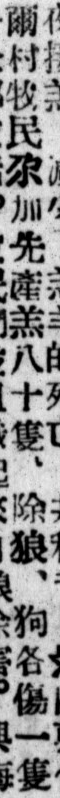爾村牧民尕加先產羔八十隻，除狼、狗各傷一隻
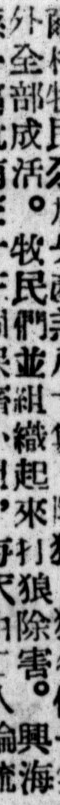外全部成活。牧民們並組織起來打狼除害。興海
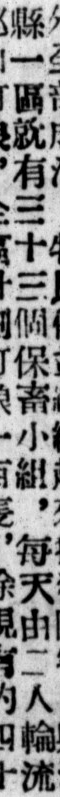縣一區就有三十三個保畜小組，每天由二人輪流
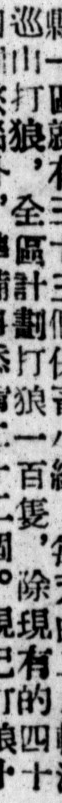巡山打狼，全區計劃打狼一百隻，除現有的四十
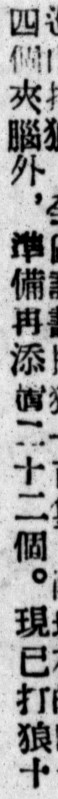四個夾腦外，準備再添置二十二個。現已打狼十
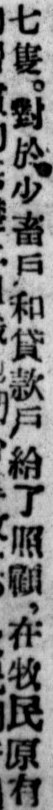七隻。對於少畜戶和貸款戶給了照顧，在牧民原有
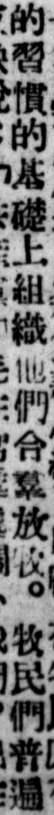的習慣地基礎上組織他們合羣放牧。牧民很普遍
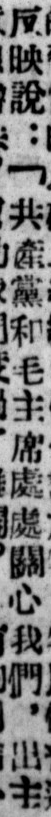反映說：「共產黨和毛主席處處關心我們，出主
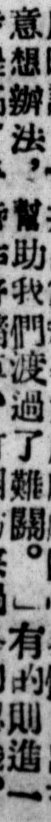意想辦法，幫助我們渡過了難關。」有的則進一
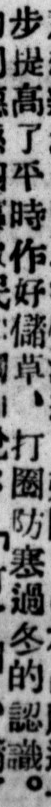步提高了平時作好備草、打圈防寒過冬的認識。
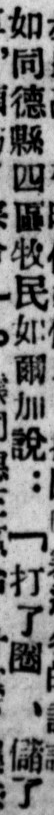如同德縣四區牧民如爾加說： 「打了圈、儲了
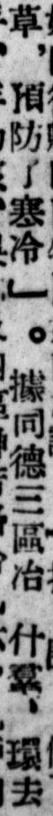草、預防了寒冷」。據同德三區冶 什羣、環去
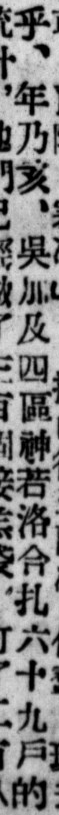乎、年乃亥、吳加及四區神若洛合扎六十九戶的
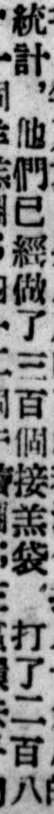統計，他們已經做了三百個接羔袋，打了二百八
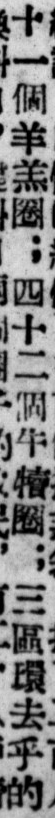十一個羊羔圈；四十二個牛槽圈；三區環去乎的
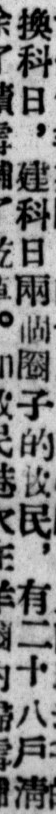換科日、建科日兩個圈子的牧民，有二十八戶清
